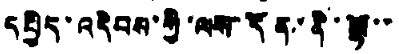དཔྱིད་འདེབས་ཀྱི་ལས་དོན་ནི་ལྷོ་་
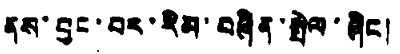ནས་བྱང་བར་རིམ་བཞིན་སྤེལ་ཞིང།
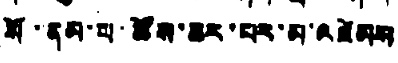སོ་ནམ་པ་ཚོས་ཆར་པར་མ་འཛེམས
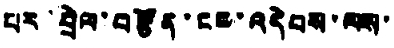པར་བྲེལ་བརྩོན་ངང་འདེབས་ལས་
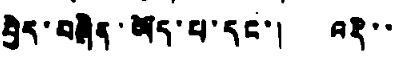བྱེད་བཞིན་ཡོད་པ་དང་། འདི་་
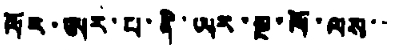ལོར་ཨར་པ་ནི་ཡར་སྔ་སོ་ལས་་
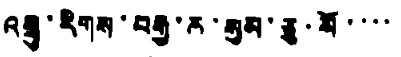འབྲུ་རིགས་བརྒྱ་ཆ་སུམ་ཅུ་སོ་་་་་
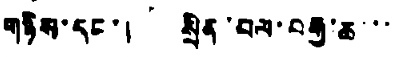གཉིས་དང་། སྲིན་བལ་བརྒྱ་ཆ་་
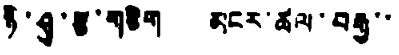ཉི་ཤུ་རྩ་གཅིག མངར་ཚལ་བརྒྱ་་
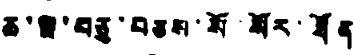ཆ་ལྔ་བཅུ་བཅས་སོ་སོར་ཐོན
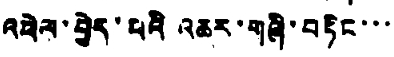འཕེལ་བྱེད་པའི འཆར་གཞི་བཏིང་་་
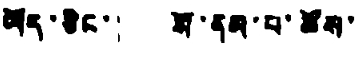ཡོད་ཅིང་། སོ་ནམ་པ་ཚོས་
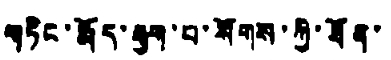གཏིང་རྨོད་རྒྱག་པ་སོགས་ཀྱི་ཐོན་
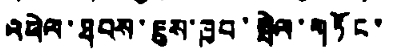འཕེལ་ཐབས་ཇུས་ཁྱབ་སྤེལ་གཏོང་
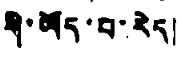གི་ཡོད་པ་རེད།
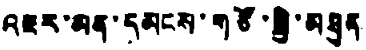འཇར་མན་དམངས་གཙོ་སྤྱི་མཐུན
